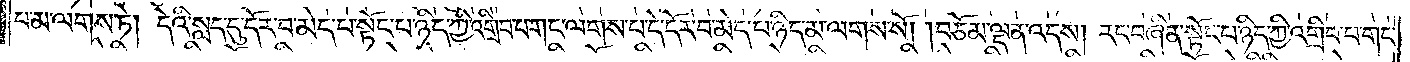པ་མ་ལགས་ཏེ། དེའི་སླད་དུ་དོར་བ་མེད་པ་སྟོང་པ་ཉིད་ཀྱི་འགྲིབ་པ་གང་ལགས་པ་དེ་དོར་བ་མེད་པ་སྟོང་པ་ཉིད་མ་ལགས་སོ། །བཅོམ་ལྡན་འདས། རང་བཞིན་སྟོང་པ་ཉིད་ཀྱི་འགྲིབ་པ་གང་
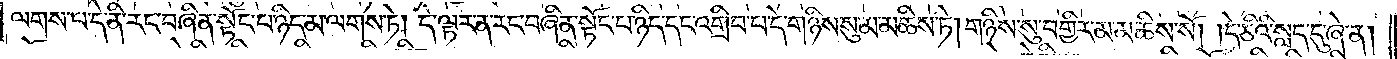ལགས་པ་དེ་ནི་རང་བཞིན་སྟོང་པ་ཉིད་མ་ལགས་ཏེ། དེ་ལྟར་ན་རང་བཞིན་སྟོང་པ་ཉིད་དང་འགྲིབ་པ་དེ་གཉིས་སུ་མ་མཆིས་ཏེ། གཉིས་སུ་བགྱིར་མ་མཆིས་སོ། །དེ་ཅིའི་སླད་དུ་ཞེ་ན།
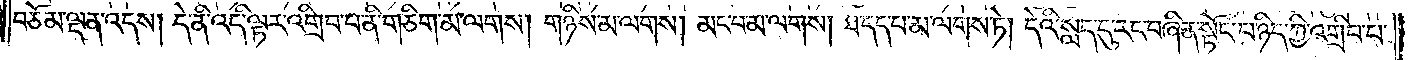བཅོམ་ལྡན་འདས། དེ་ནི་འདི་ལྟར་འགྲིབ་པ་ནི་གཅིག་མ་ལགས། གཉིས་མ་ལགས། མང་བ་མ་ལགས། ཐ་དད་པ་མ་ལགས་ཏེ། དེའི་སླད་དུ་རང་བཞིན་སྟོང་པ་ཉིད་ཀྱི་འགྲིབ་པ་
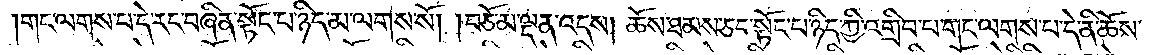གང་ལགས་པ་དེ་རང་བཞིན་སྟོང་པ་ཉིད་མ་ལགས་སོ། །བཅོམ་ལྡན་འདས། ཆོས་ཐམས་ཅད་སྟོང་པ་ཉིད་ཀྱི་འགྲིབ་པ་གང་ལགས་པ་དེ་ནི་ཆོས་
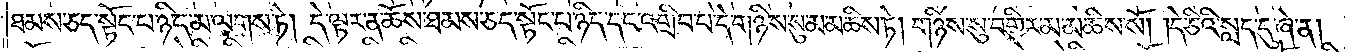ཐམས་ཅད་སྟོང་པ་ཉིད་མ་ལགས་ཏེ། དེ་ལྟར་ན་ཆོས་ཐམས་ཅད་སྟོང་པ་ཉིད་དང་འགྲིབ་པ་དེ་གཉིས་སུ་མ་མཆིས་ཏེ། གཉིས་སུ་བགྱིར་མ་མཆིས་སོ། །དེ་ཅིའི་སླད་དུ་ཞེ་ན།
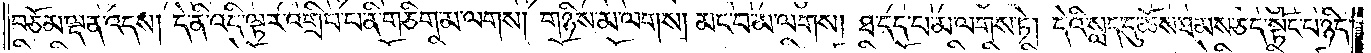བཅོམ་ལྡན་འདས། དེ་ནི་འདི་ལྟར་འགྲིབ་པ་ནི་གཅིག་མ་ལགས། གཉིས་མ་ལགས། མང་བ་མ་ལགས། ཐ་དད་པ་མ་ལགས་ཏེ། དེའི་སླད་དུ་ཆོས་ཐམས་ཅད་སྟོང་པ་ཉིད་
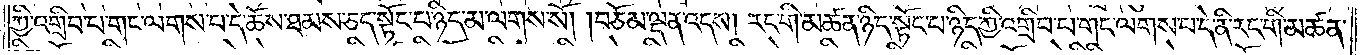ཀྱི་འགྲིབ་པ་གང་ལགས་པ་དེ་ཆོས་ཐམས་ཅད་སྟོང་པ་ཉིད་མ་ལགས་སོ། །བཅོམ་ལྡན་འདས། རང་གི་མཚན་ཉིད་སྟོང་པ་ཉིད་ཀྱི་འགྲིབ་པ་གང་ལགས་པ་དེ་ནི་རང་གི་མཚན་
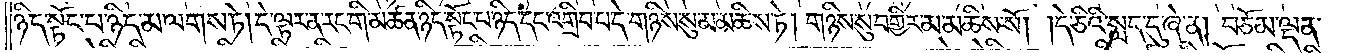ཉིད་སྟོང་པ་ཉིད་མ་ལགས་ཏེ། དེ་ལྟར་ན་རང་གི་མཚན་ཉིད་སྟོང་པ་ཉིད་དང་འགྲིབ་པ་དེ་གཉིས་སུ་མ་མཆིས་ཏེ། གཉིས་སུ་བགྱིར་མ་མཆིས་སོ། །དེ་ཅིའི་སླད་དུ་ཞེ་ན། བཅོམ་ལྡན་
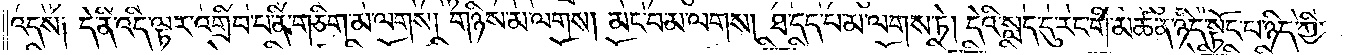འདས། དེ་ནི་འདི་ལྟར་འགྲིབ་པ་ནི་གཅིག་མ་ལགས་གཉིས་མ་ལགས་མང་བ་མ་ལགས་ཐ་དད་པ་མ་ལགས་ཏེ། དེའི་སླད་དུ་རང་གི་མཚན་ཉིད་སྟོང་པ་ཉིད་ཀྱི་
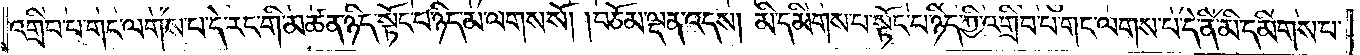འགྲིབ་པ་གང་ལགས་པ་དེ་རང་གི་མཚན་ཉིད་སྟོང་པ་ཉིད་མ་ལགས་སོ། །བཅོམ་ལྡན་འདས། མི་དམིགས་པ་སྟོང་པ་ཉིད་ཀྱི་འགྲིབ་པ་གང་ལགས་པ་དེ་ནི་མི་དམིགས་པ་
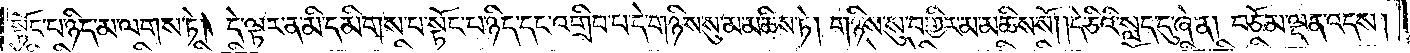སྟོང་པ་ཉིད་མ་ལགས་ཏེ། དེ་ལྟར་ན་མི་དམིགས་པ་སྟོང་པ་ཉིད་དང་འགྲིབ་པ་དེ་གཉིས་སུ་མ་མཆིས་ཏེ། གཉིས་སུ་བགྱིར་མ་མཆིས་སོ། །དེ་ཅིའི་སླད་དུ་ཞེ་ན། བཅོམ་ལྡན་འདས།
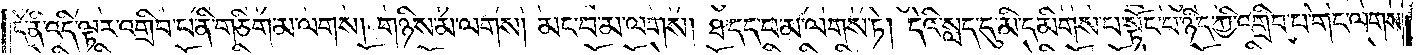དེ་ནི་འདི་ལྟར་འགྲིབ་པ་ནི་གཅིག་མ་ལགས། གཉིས་མ་ལགས། མང་བ་མ་ལགས། ཐ་དད་པ་མ་ལགས་ཏེ། དེའི་སླད་དུ་མི་དམིགས་པ་སྟོང་པ་ཉིད་ཀྱི་འགྲིབ་པ་གང་ལགས་
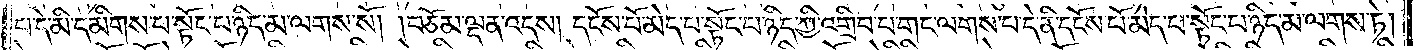པ་དེ་མི་དམིགས་པ་སྟོང་པ་ཉིད་མ་ལགས་སོ། །བཅོམ་ལྡན་འདས། དངོས་པོ་མེད་པ་སྟོང་པ་ཉིད་ཀྱི་འགྲིབ་པ་གང་ལགས་པ་དེ་ནི་དངོས་པོ་མེད་པ་སྟོང་པ་ཉིད་མ་ལགས་ཏེ།
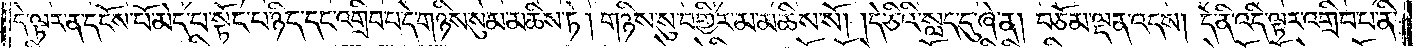དེ་ལྟར་ན་དངོས་པོ་མེད་པ་སྟོང་པ་ཉིད་དང་འགྲིབ་པ་དེ་གཉིས་སུ་མ་མཆིས་ཏེ། གཉིས་སུ་བགྱིར་མ་མཆིས་སོ། །དེ་ཅིའི་སླད་དུ་ཞེ་ན། བཅོམ་ལྡན་འདས། དེ་ནི་འདི་ལྟར་འགྲིབ་པ་ནི་
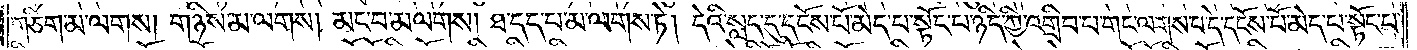གཅིག་མ་ལགས། གཉིས་མ་ལགས། མང་བ་མ་ལགས། ཐ་དད་པ་མ་ལགས་ཏེ། དེའི་སླད་དུ་དངོས་པོ་མེད་པ་སྟོང་པ་ཉིད་ཀྱི་འགྲིབ་པ་གང་ལགས་པ་དེ་དངོས་པོ་མེད་པ་སྟོང་པ་
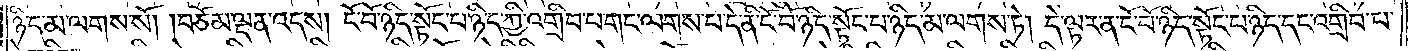ཉིད་མ་ལགས་སོ། །བཅོམ་ལྡན་འདས། ངོ་བོ་ཉིད་སྟོང་པ་ཉིད་ཀྱི་འགྲིབ་པ་གང་ལགས་པ་དེ་ནི་ངོ་བོ་ཉིད་སྟོང་པ་ཉིད་མ་ལགས་ཏེ། དེ་ལྟར་ན་ངོ་བོ་ཉིད་སྟོང་པ་ཉིད་དང་འགྲིབ་པ་
